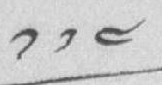༡༡༤
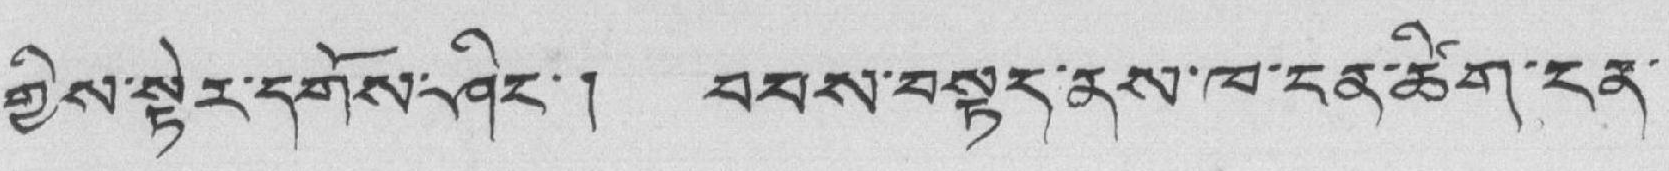གྱིས་སྟེར་དགོས་ཤིང་། བབས་བསྟད་ནས་ཁ་ངན་ཚིག་ངན་
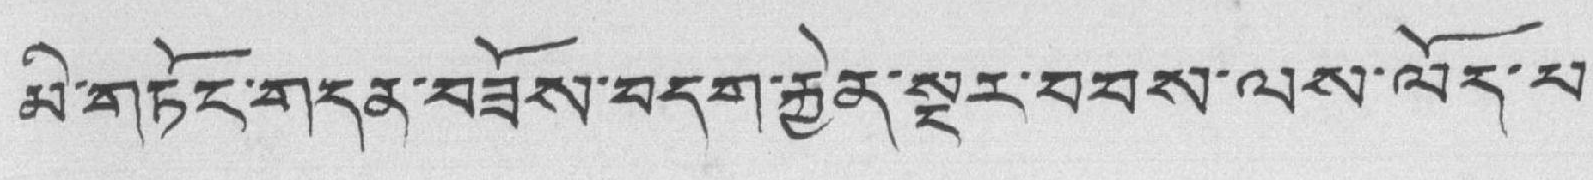མི་གཏོང་གདན་བཟོས་བདག་རྐྱེན་སྔར་བབས་ལས་ལོད་པ་
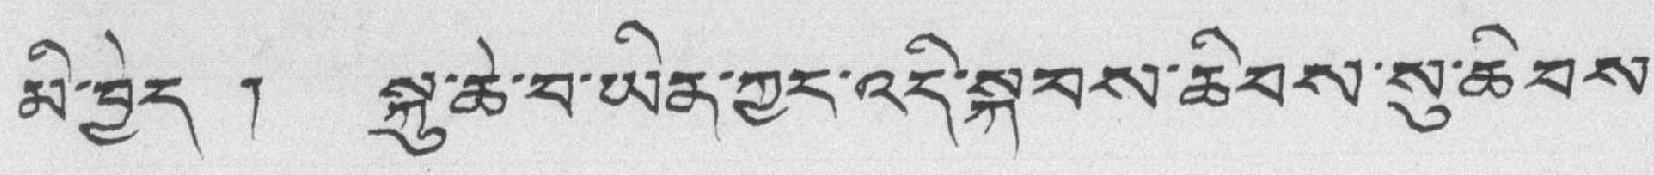མི་བྱེད ། སྐུ་ཆེ་བ་ཡིན་ཀྱང་འདི་སྐབས་ཆིབས་སུ་ཆིབས་
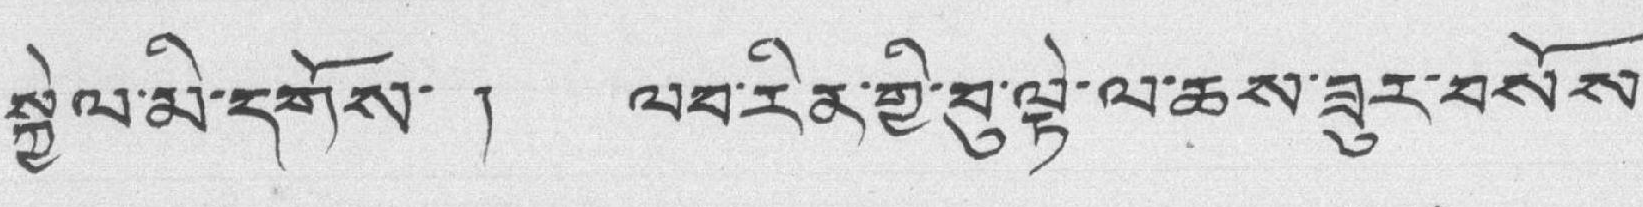སྐྱེལ་མི་དགོས་ ། ལབ་རིན་གྱི་བུ་ལྟེ་ལ་ཆས་ཟུར་བསོས་
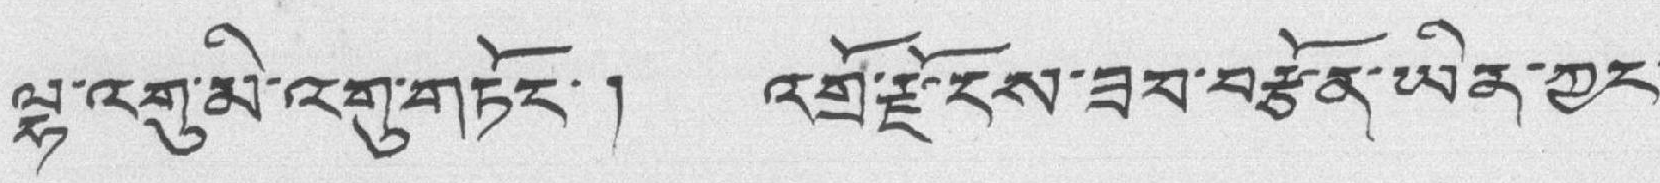ལྷ་འགུ་མི་འགུ་གཏོང་ ། འགྲོ་རྫོངས་ཟབ་བརྩོན་ཡིན་ཀྱང་
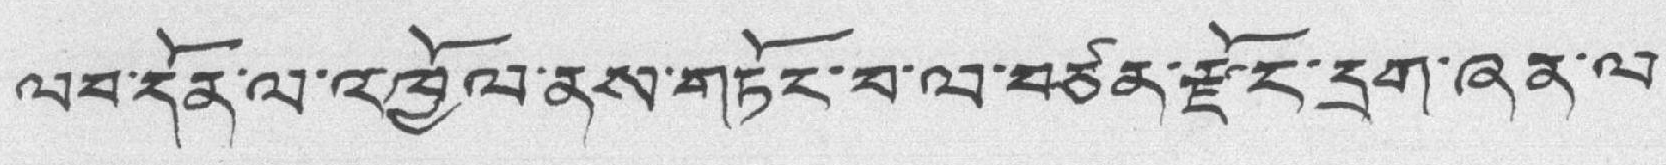ལབ་དོན་ལ་འཁྱོལ་ནས་གཏོང་བ་ལ་བཙན་རྫོང་དྲག་ཞན་ལ་
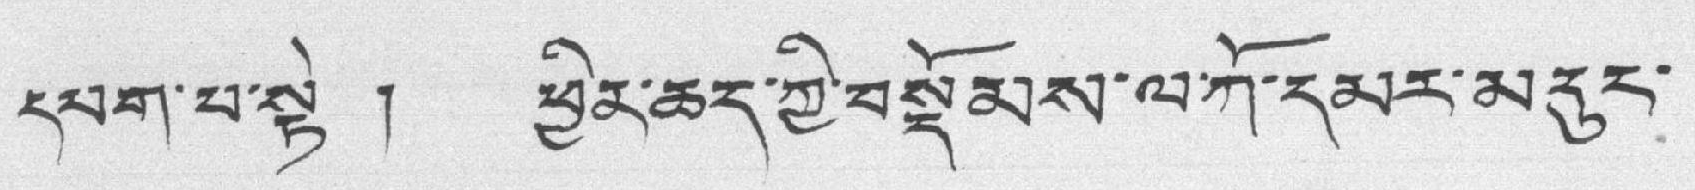དམག་པ་སྟེ ། ཕྱིན་ཆད་ཀྱི་བསྡོམས་ལ་ཀོ་དམར་མདུང་
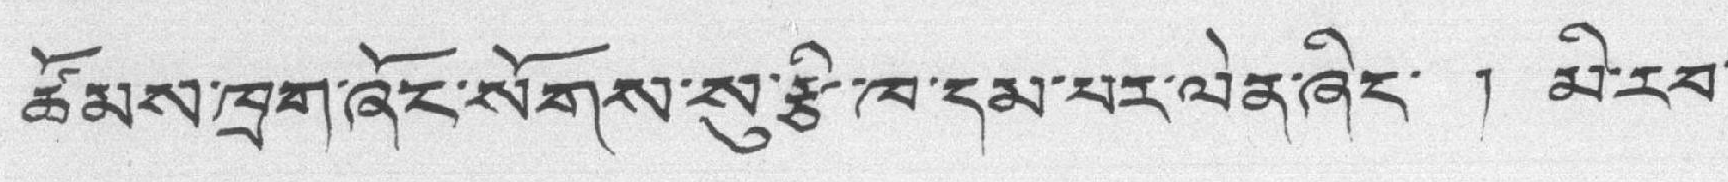ཚོམས་ཁྲག་ཞོང་སོགས་སུ་རྩི་ཁ་དམ་པར་ལེན་ཞིང་ ། མི་རབ་
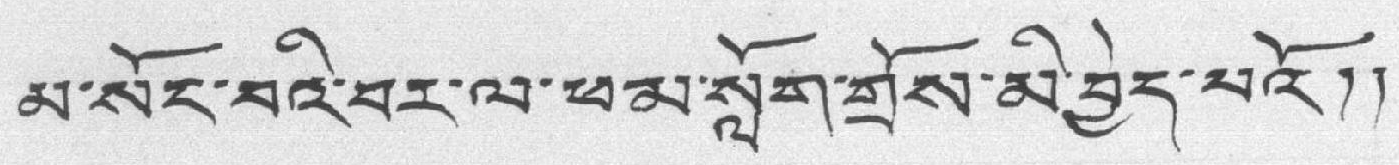མ་སོང་བའི་བར་ལ་ཕམ་སློག་གྲོས་མི་བྱེད་པའོ།།
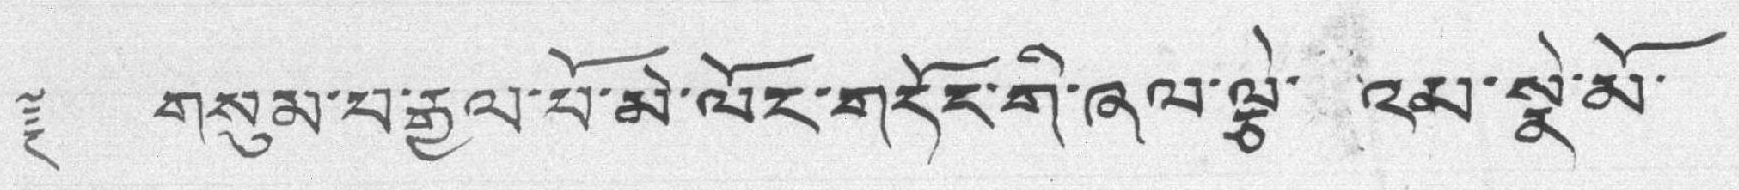༈ གསུམ་བརྒྱལ་པོ་མེ་ལོང་གདོང་གི་ཞལ་ལྕེ་ འམ་སྣེ་མོ་
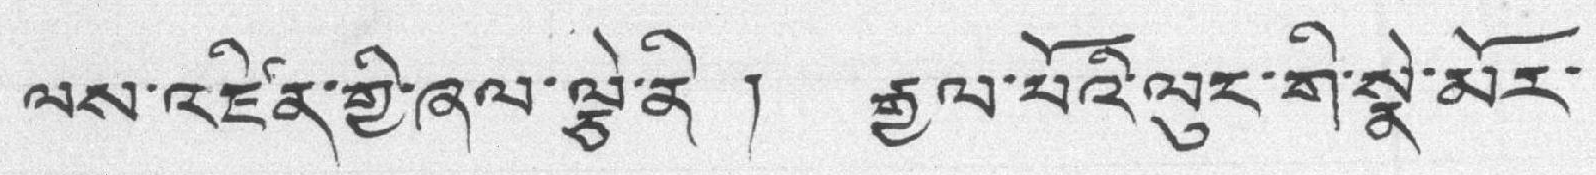ལས་འཛིན་གྱི་ཞལ་ལྕེ་ནི ། རྒྱལ་པོའི་ལུང་གི་སྣེ་མོར་
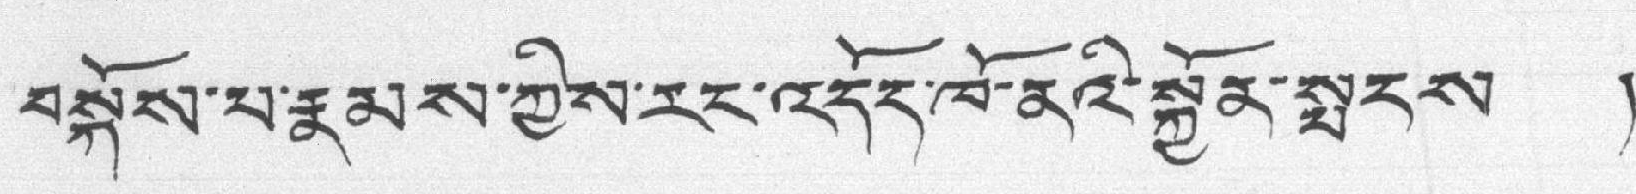བསྐོས་པ་རྣམས་ཀྱིས་རང་འདོད་ཁོ་ནོའི་སྐྱོན་སྤངས །
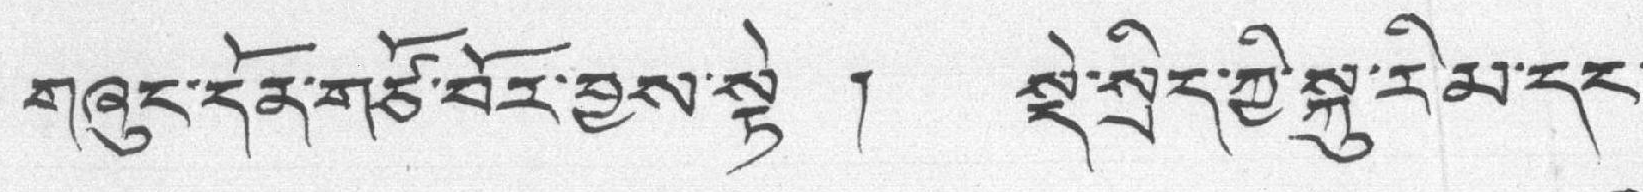གཞུང་དོན་གཙོ་བོར་བྱས་སྟེ ། སྡེ་སྲིད་ཀྱི་སྐུ་རིམ་དང་
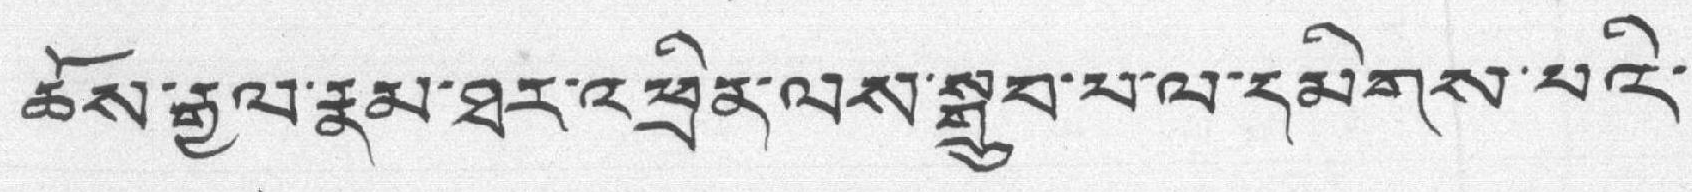ཆོས་རྒྱལ་རྣམ་ཐར་འཕྲིན་ལས་སྒྲུབ་པ་ལ་དམིགས་པའི་
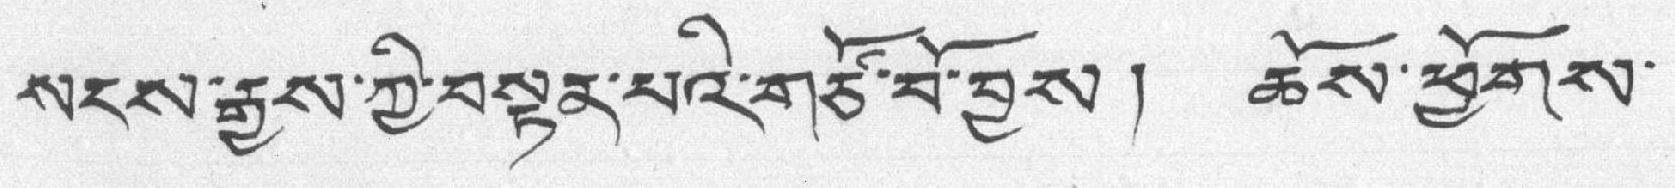སངས་རྒྱས་ཀྱི་བསྟན་པའི་གཙོ་བོ་བྱས། ཆོས་ཕྱོགས་
